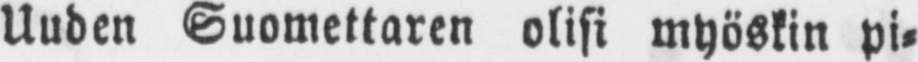Uuden Suomettaren olisi myöskin pi-
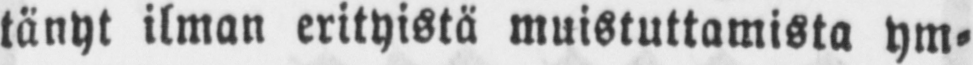tänyt ilman erityistä muistuttamista ym-
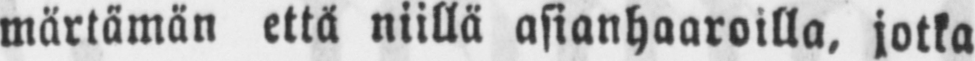märtämän että niillä asianhaaroilla, jotka
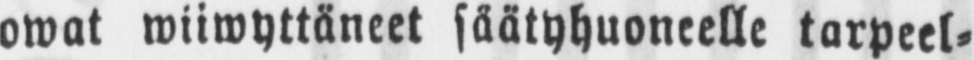owat wiiwyttäneet säätyhuoneelle tarpeel-
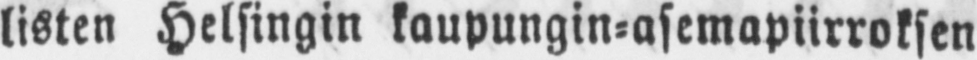listen Helsingin kaupungin-asemapiirroksen
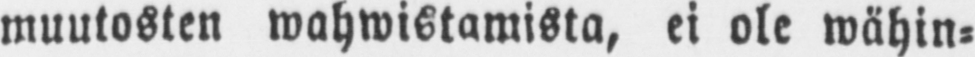muutosten wahwistamista, ei ole wähin-
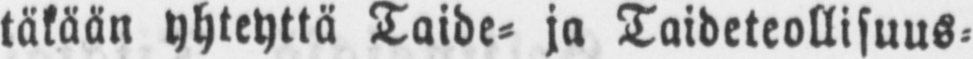täkään yhteyttä Taide- ja Taideteollisuus-
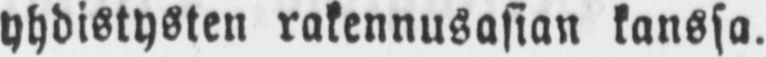yhdistysten rakennusasian kanssa.
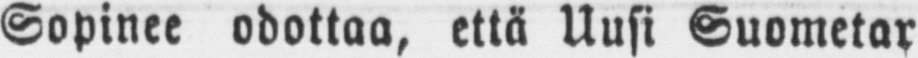Sopinee odottaa, että Uusi Suometar
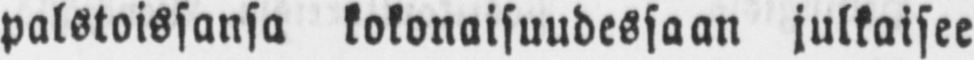palstoissansa kokonaisuudessaan julkaisee
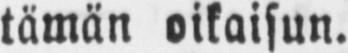tämän oikaisun.
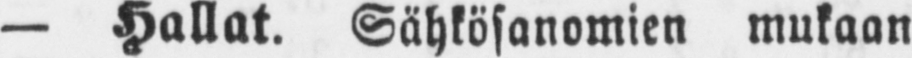— Hallat. Sähkösanomien mukaan
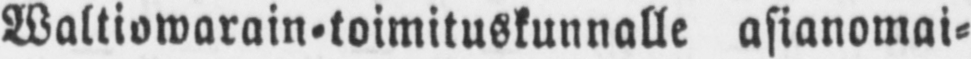Waltiowarain-toimituskunnalle asianomai-
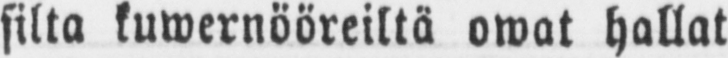silta kuwernööreiltä owat hallat
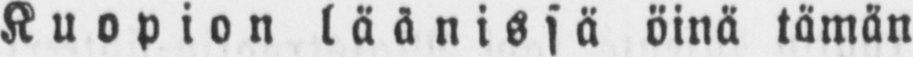Kuopion läänissä öinä tämän
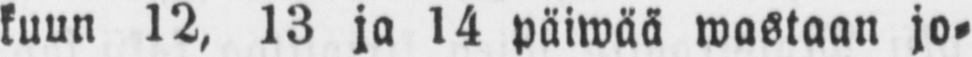kuun 12, 13 ja 14 päiwää wastaan jo-
